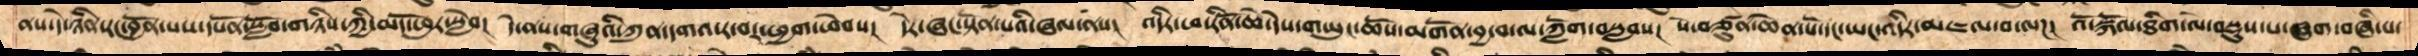ནས་དེ་ཉིན་རང་བྱོན་པས་དཔོན་སློབ་གཉིས་ཀྱི་མདོ་ཕུར་སླེབ།  དེ་ནས་གཞུའི་ཀུན་དགའ་ར་བར་ཕྱག་ཕེབས།  དེར་ཞང་སྟོན་པའི་ཞལ་ནས།  འདིར་ཕ་རིནོ་ཆེ་དེས་གཡུང་ཆོས་མགོན་བྱ་བ་ལ་ཀློག་བསླབས།  སེ་བཙུན་ཆེན་པོ་དང་ཡང་འདིར་མཇལ་བ་ལཌ།  འོ་སྐོལ་ཐིག་ལེ་བསྡུས་པ་ཞག་བཞི་པ་
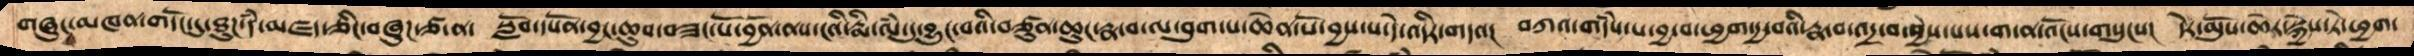གཞུང་མཁན་གདོང་དུ་ཐུཌ་དཾ་མཛད་ཅིང་བཞུཌ་ཙ་ན་  སློབ་དཔོན་བྱང་ཆུབ་བཟང་པོ་བྱོན་ནས་ངའི་རྨི་ལཾ་དུ་བྱུང་པའི་བཙུན་ཆུང་རྣ་བ་ལ་བུག་པ་ཆེན་པོ་བྱས་དེ་འདིར་གདའ།  བཀའ་གདཾས་པ་བྱ་བ་ཕྱག་དྱ་བའི་རྣ་བ་འདྲ་བ་བྱིས་པས་གདན་འོངས་གསུངས།  དེར་མུསོ་ཆེར་སྐྱེས་ཏེ་ཕྱག་
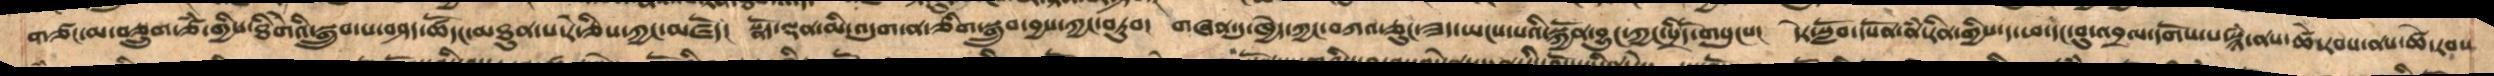གཙང་མ་བཅྲུག་ཙཾ་གྱིས་ཐིགེའི་སྒྲུབ་པ་བཤད་ཚོདང་མཐུན་པ་རེ་ཅིས་ཀྱང་མཛོད།  སྣོད་ལྡན་མི་འདུག་ན་ཅིག་སྒྲུབ་བྱས་ཀྱང་བཏུབ།  གཞན་དུ་ཁྱེད་ཀྱང་བཀའ་ཅུང་ཟད་ཡངས་པའི་སྐྱོན་བྱུང་ཀྱང་་སྲིདོ་གསུངས།  དེར་སློབ་དཔོན་ནཾ་རིན་གྱིས་ད་ཕ་དང་བུ་འབྲལ་དགོས་པ་སྙཾ་ནས་ཚེ་རབས་ནས་ཚེ་རབས
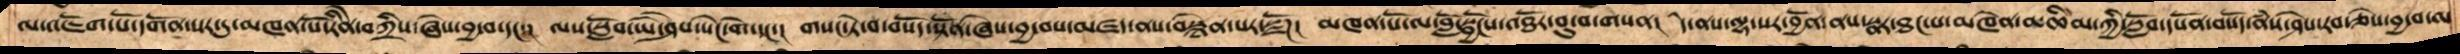ལ་འཇོག་པོ་དགོན་སར་དུ་མཁན་པོ་རིནེ་བཀྲིས་ཞེས་བྱ་བ་དང་།  ལས་སློབ་ཡེ་ཤེས་སེང་གེ་དང་།  གསང་ཏེ་བ་བསོད་སྟོན་ཞེས་བྱ་བས་མཛད་ནས་བསྙེན་པར་སྫོཌ།  མཁན་པོ་ལ་བློ་སྦྱོངས་འཐོར་བུ་བ་གསན།  དེ་ནས་ལྷ་སར་བྱོན་ནས་སྣར་ཐང་པ་མཁེན་མཆིམ་ཀྱི་སློབ་དཔོན་བསོད་ནཾས་ཤེས་རབ་ཅེས་བྱ་བ་ལ་
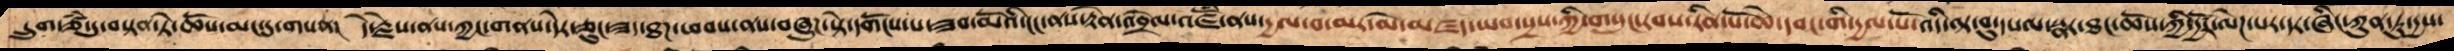དྲུག་ཙཾ་དུ་བསྟན་ཏེ་ཆོས་མང་དུ་གསན།  དེ་རྗེས་ནས་ཀྱང་གནས་དེར་ཅུང་ཟད་ཐཌ་ཕབས་ནས་བཞུཌ་སྟེ་དགོངས་པ་ཟབ་མོའི་ངང་ནས་རྟེན་འབྲེལ་འཛོཾ་ནས་དྱལ་བ་མར་མེ་མཛད་ཡབ་སྲས་ཀྱི་གསུང་རབས་རིན་པོ་ཆེ་དབང་གི་དྱལ་པོ་འདི་ལྟ་བུ་དཔལ་སྣར་ཐང་ཆོས་ཀྱི་དྱཚོར་ལེཌ་པར་དར་ཞིང་ཀུན་ཏུ་དྱས་
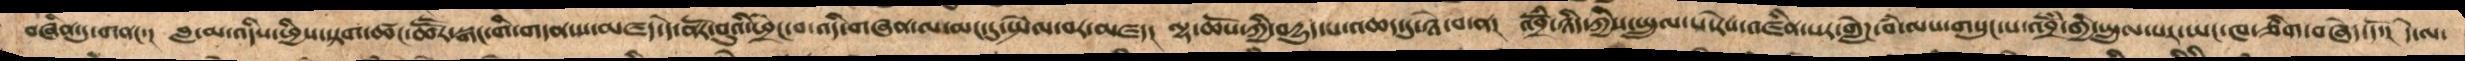བཞིན་དུ་གནང་།  བླ་མ་འདི་ཕྱིས་སྟག་ཚང་ཆཽར་སྒང་གི་གདན་ས་མཛད་དེ་ནོར་བུའི་ཕྲེང་བ་འདི་གཞན་ལ་མང་དུ་སྤེལ་བར་མཛད།  ལྷ་ཆོས་ཀྱི་བདྱུད་པ་འཆད་དུ་ཉེ་བ་ན།  འབྲོཾ་ཉིད་ཀྱིས་སྤྲུལ་པ་རེས་འཛིན་པར་གླེཌ་བཾ་ལས་གསུང་པ་འབྲོཾ་གྱི་སྤྲུལ་པར་ཡང་ཁ་ཅིག་བཞེད་དོ་།  དེ་ལ་
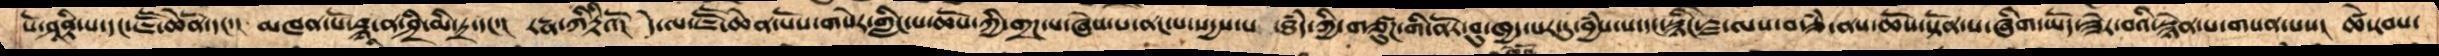པོ་ཤཱནྟི་པ་དང་ཇཽ་ཆེནོ་དང་།  མཁན་པོ་ཛྙཱ་ན་ཤྲཱི་མི་ཏྲ་དང་། རཏྣ་ཀཱིརྟིའོ།   དེ་ལ་ཇཽ་ཆེན་པོས་གསེར་གླིང་པ་ཆོས་ཀྱི་གྲཌ་པ་ཞེས་པ་ནང་པ་སདྱས་པ་ ཐཾད་ཀྱི་གཙུཌ་གི་ནོར་བུ་ཁྱད་པར་དུ་བྱཾས་པ་དང་སྙིང་རྗེ་ལས་བརྩཾ་ནས་ཆོས་སྟོན་པ་ཞིག་ཡོད་ཟེར་བའི་སྙེན་པ་གསན་པས།  ཚེ་རབས་
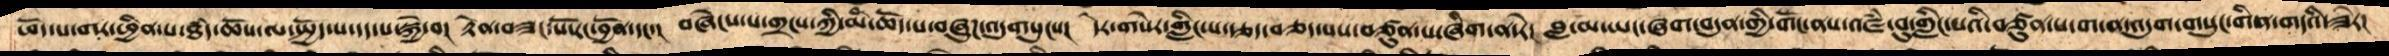ཕོད་པ་གར་ཕྱིན་པ་ཐཾད་ཆོས་ལ་སྤྱོད་པ་དད་པ་སྐྱེ་བ།  རྟེན་བཟང་པོ་རང་བྱོན་དང་།  བཞེངས་པ་གྲངས་ཀྱི་མི་ཆོད་པ་བཞུཌ་འདུགསུངས།  དེར་གསེར་གླིང་པ་རྩད་བཅད་པས་བཙུན་པ་ཞིག་ན་རེ།  བླ་མ་ཡང་ཞག་བདུན་གྱི་གོང་ནས་འཛཾ་བུ་གླིང་པའི་བཙུན་པ་ག་ན་འདུག་གསུང་གིན་གདའི་ཟེར།
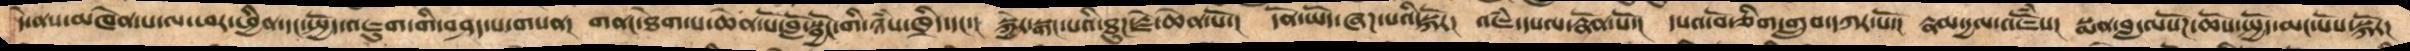དེ་ནས་མཁེན་པ་ལ་ཕར་ཕྱིན་དང་སྤྱོད་འཇུག་གི་བཤད་པ་གསན།  གནང་ཐེག་པ་ཆེན་པོ་བློ་སྦྱོང་གི་ཉཾས་ཁྲིད་དང་། སྐྱེར་སྒང་པའི་ཐུཌ་རྗེ་ཆེན་པོ།  དོན་ཡོད་ཞཌ་པའི་སྐོར།  འཇཾ་དཔལ་རྣོན་པོ་།  དཔའ་བོ་ཅིག་གྲུབ་དཀར་པོ་།  རྣམ་དྱལ་འཇོཾས།  སྨན་བླ་ལསོཌ་ཆོས་སྤྱོད་མང་པོས་སྐོར།
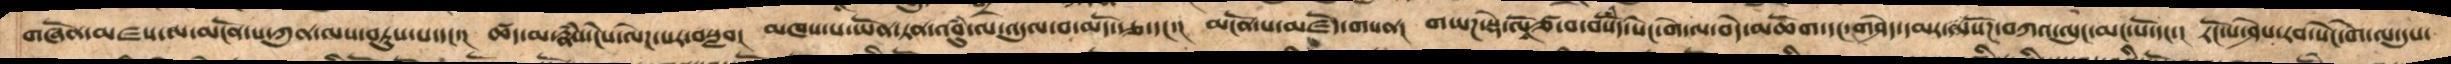གཞོན་མཛས་ལ་མངོན་པ་ཀུན་ལས་བཏུས་པ་དང་།  ཚད་མ་རྣཾས་ངེས་ལེཌ་པར་བསླབ།  མཁས་པ་ཡོན་ཏན་འབུཾ་ལ་འདུལ་བ་མདོ་རྩ་དང་།  མངོན་པ་མཛོད་གསན།  གཡཌ་སྡེ་ལོཙཱ་བ་བསོཾད་སེང་གེ་ལ་བདེ་མཆོག་དང་གཤེད་དམར་ལསོཌ་བཀའ་ལུང་མང་པོ་དང་།  རོང་པ་ཤེས་རབ་སེང་གེ་ལ་དུས་
